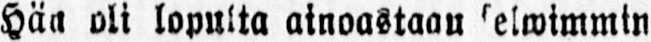Hän oli lopulta ainoastaau selwimmin
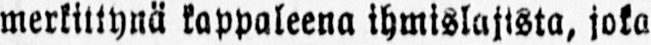merkittynä kappaleena ihmislajista, joka
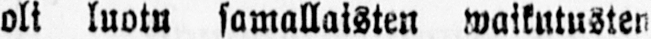oli luotu samallaisten waikutusten
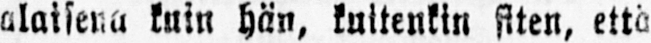alaisena kuin hän, kuitenkin siten, että
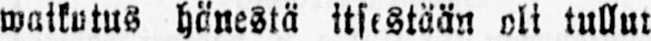waikutus hänestä itsestään oli tullut
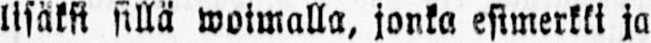lisäksi sillä woimalla, jonka esimerkki ja
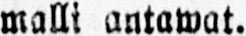malli antawat.
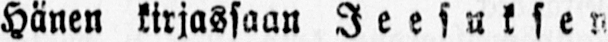Hänen kirjassaan Jeesuksen
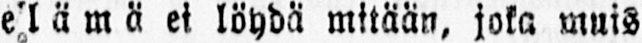elämä ei löydä mitään, joka muis
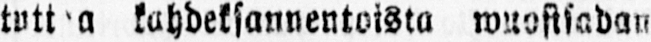tutt a kahdeksannentoista wuosisadan
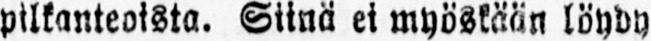pilkanteoista. Siinä ei myöskään löydy
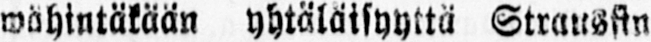wähintäkään yhtäläisyyttä Straussin
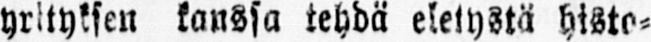yrityksen kanssa tehdä eletystä histo-
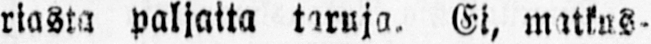riasta paljaita taruja. Ei, matkus-
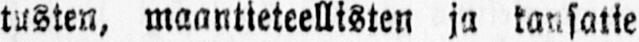tusten, maantieteellisten ja kansatie
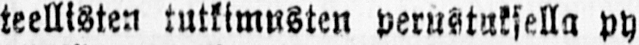teellisten tutkimusten perustuksella py
